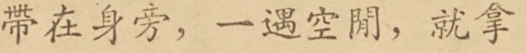帶在身旁，一遇空閒，就拿
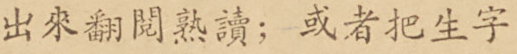出來翻閱熟讀；或者把生字
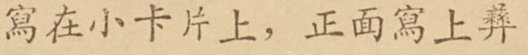寫在小卡片上，證明寫上彝
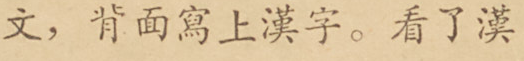文，背面寫上漢字。看了漢
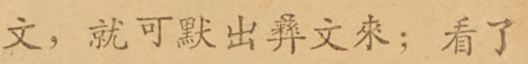文，就可默出彝文來；看了
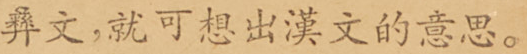彝文，就可想出漢文的意思。
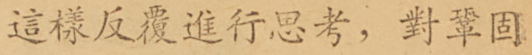這樣反覆進行思考，對鞏固
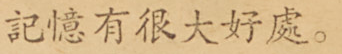記憶有很大好處。
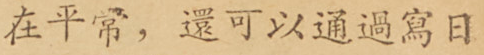在平常，還可以通過寫日
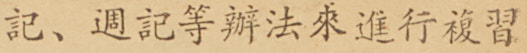記、週記等辦法來進行複習
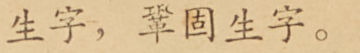生字，鞏固生字。
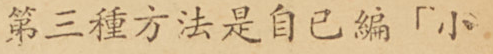第三種方法是自己編「小
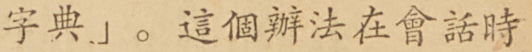字典」。這個辦法在會話時
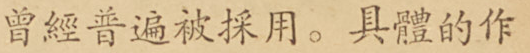曾經普遍被採用。具體的作
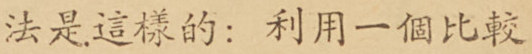法是這樣的：利用一個比較
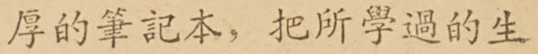厚的筆記本，把所學過的生
